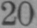20
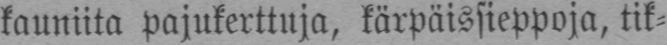kauniita pajukerttuja, kärpäissieppoja, tik-
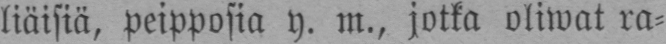liäisiä, peipposia y. m., jotka oliwat ra-
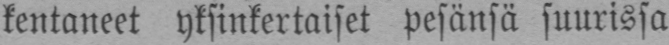kentaneet yksinkertaiset pesänsä suurissa
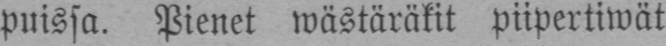puissa. Pienet wästäräkit piipertiwät
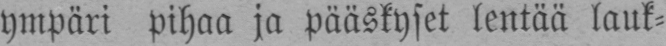ympäri pihaa ja pääskyset lentää lauk-
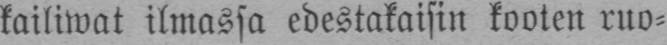kailiwat ilmassa edestakaisin kooten ruo-
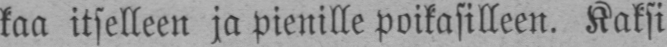kaa itselleen ja pienille poikasilleen. Kaksi
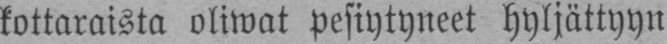kottaraista oliwat pesiytyneet hyljättyyn
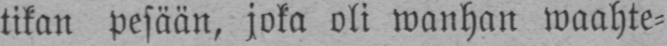tikan pesään, joka oli wanhan waahte-
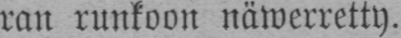ran runkoon näwerretty.
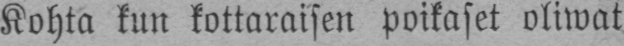Kohta kun kottaraisen poikaset oliwat
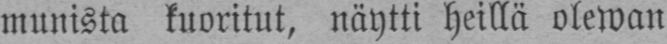munista kuoritut, näytti heillä olewan
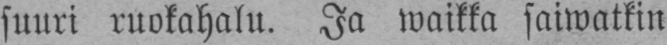suuri ruokahalu. Ja waikka saiwatkin
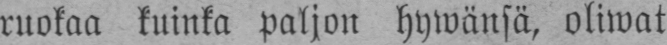ruokaa kuinka paljon hywänsä, oliwat
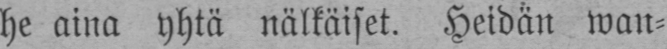he aina yhtä nälkäiset. Heidän wan-
